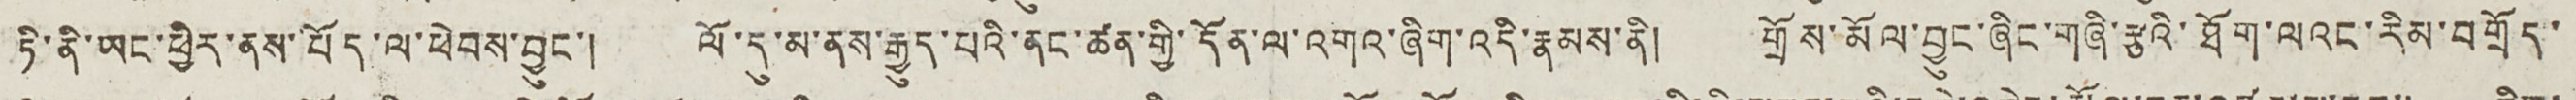ཏི་ནི་ཡང་ཕྱིར་ནས་བོད་ལ་ཕེབས་བྱུང་། ལོ་དུ་མ་ནས་རྒྱུད་པའི་ནང་ཚན་གྱི་དོན་ལ་འགའ་ཞིག་འདི་རྣམས་ནི། གྲོས་མོལ་བྱུང་ཞིང་གཞི་རྩའི་ཐོག་ལའང་རིམ་བགྲོད་
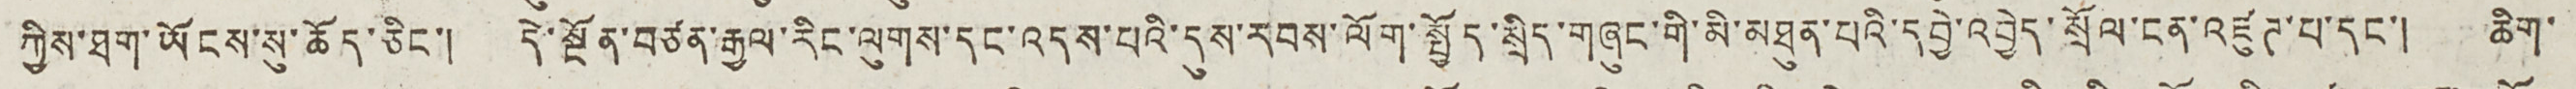ཀྱིས་ཐག་ཡོངས་སུ་ཆོད་ཅིང་། དེ་སྔོན་བཙན་རྒྱལ་རིང་ལུགས་དང་འདས་པའི་དུས་རབས་ལོག་སྤྱོད་སྲིད་གཞུང་གི་མི་མཐུན་པའི་དབྱེ་འབྱེད་སྲོལ་ངན་འཛུཊ་པ་དང་། ཆིག་
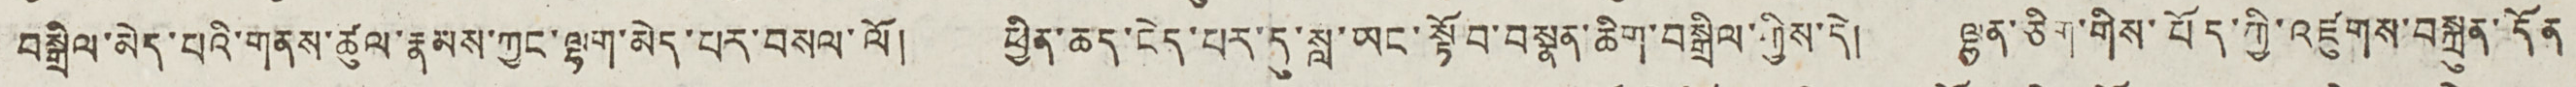བསྒྲིལ་མེད་པའི་གནས་ཚུལ་རྣམས་ཀྱང་ལྷག་མེད་པར་བསལ་ལོ། ཕྱིན་ཆད་ངེད་པར་དུ་སླ་ཡང་སྟོབ་བསྣན་ཆིག་བསྒྲིལ་གྱིས་དེ། ལྷན་ཅིག་གིས་བོད་ཀྱི་འཛུགས་བསྐྲུན་དོན
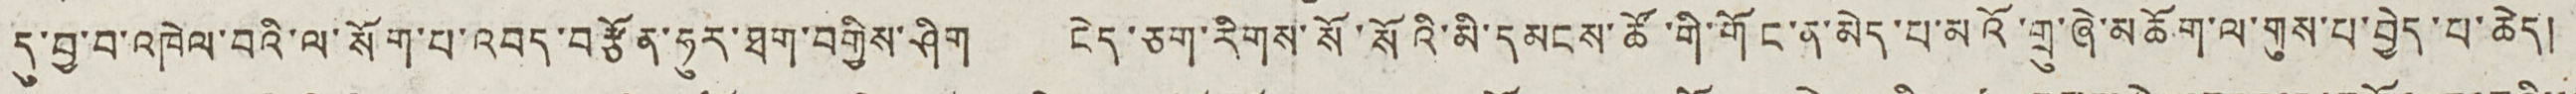དུ་བྱ་བ་འཁེལ་བའི་ལ་སོག་པ་འབད་བརྩོན་ཧུར་ཐག་བགྱིས་ཤིག ངེད་ཅག་རིགས་སོ་སོའི་མི་དམངས་ཚོ་གི་གོང་ན་མེད་པ་མའོ་གྲུ་ཞེ་མཆོག་ལ་གུས་པ་བྱེད་པ་ཆེད།
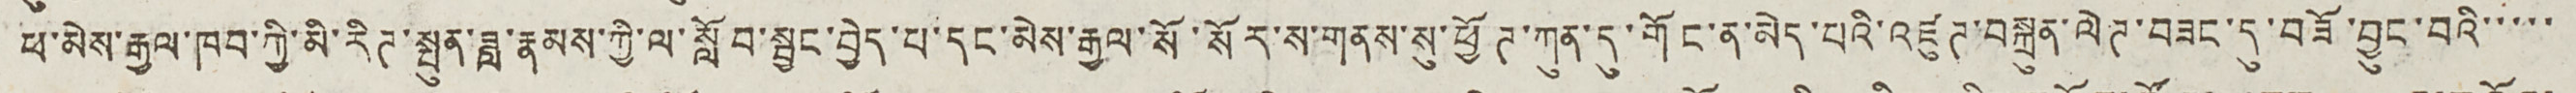ཕ་མེས་རྒྱལ་ཁབ་ཀྱི་མི་རིཊ་སྤུན་ཟླ་རྣམས་ཀྱི་ལ་སློབ་སྦྱང་བྱེད་པ་དང་མེས་རྒྱལ་སོ་སོར་ས་གནས་སུ་ཕྱོཊ་ཀུན་དུ་གོང་ན་མེད་པའི་འཛུཊ་བསྐྲུན་ལེཊ་བཟང་དུ་བཟོ་བྱུང་བའི་་་་་
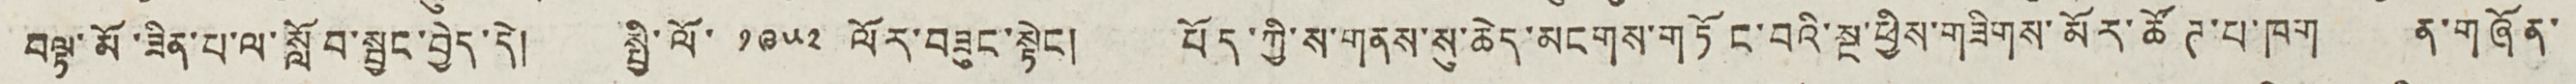བལྟ་མོ་ཟིན་པ་ལ་སློབ་སྦྱང་བྱེད་དེ། སྤྱི་ལོ་ ༡༩༥༢ ལོར་བཟུང་སྟེང། བོད་ཀྱི་ས་གནས་སུ་ཆེད་མངགས་གཏོང་བའི་སྔ་ཕྱིས་གཟིགས་མོར་ཚོཊ་པ་ཁག ན་གཞོན་
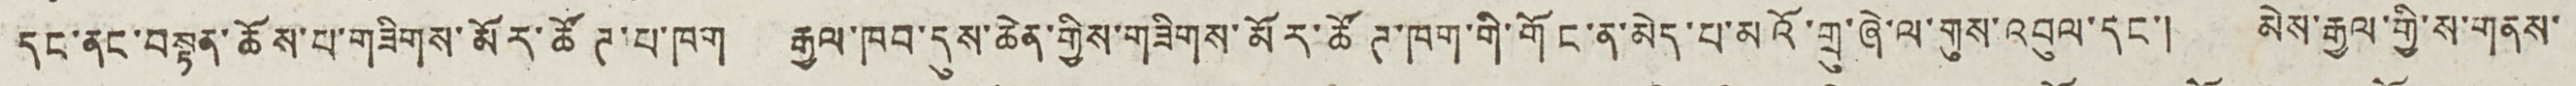དང་ནང་བསྟན་ཆོས་པ་གཟིགས་མོར་ཚོཊ་པ་ཁག རྒྱལ་ཁབ་དུས་ཆེན་གྱིས་གཟིགས་མོར་ཚོཊ་ཁག་གི་གོང་ན་མེད་པ་མའོ་གྲུ་ཞེ་ལ་གུས་འབུལ་དང་། མེས་རྒྱལ་གྱི་ས་གནས་
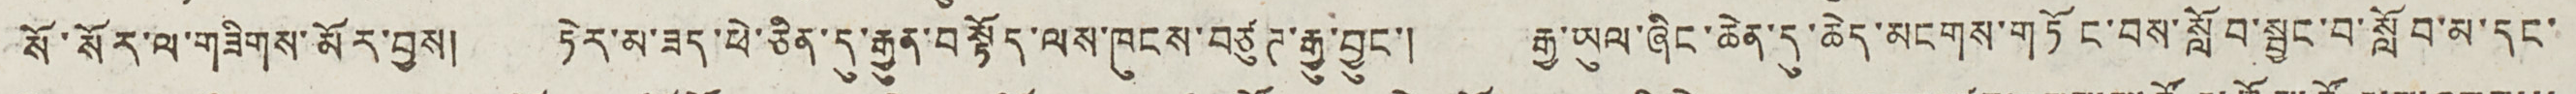སོ་སོར་ལ་གཟིགས་མོར་བྱས། ཏེར་མ་ཟད་ཕེ་ཅིན་དུ་རྒྱུན་བསྟོད་ལས་ཁུངས་བཙུཊ་རྒྱ་བྱུང་། རྒྱ་ཡུལ་ཞིང་ཆེན་དུ་ཆེད་མངགས་གཏོང་བས་སློབ་སྦྱང་བ་སློབ་མ་དང་།
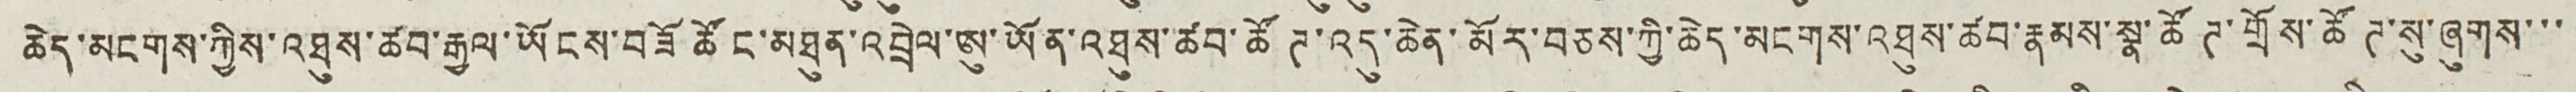ཆེད་མངགས་ཀྱིས་འཐུས་ཚབ་རྒྱལ་ཡོངས་བཟོ ཚོང་མཐུན་འབྲེལ་ཨུ་ཡོན་འཐུས་ཚབ་ཚོཊ་འདུ་ཆེན་མོར་བཅས་ཀྱི་ཆེད་མངགས་འཐུས་ཚབ་རྣམས་སྣ་ཚོ ཊ་གྲོས་ཚོ ཊ་སུ་ཞུགས་་་
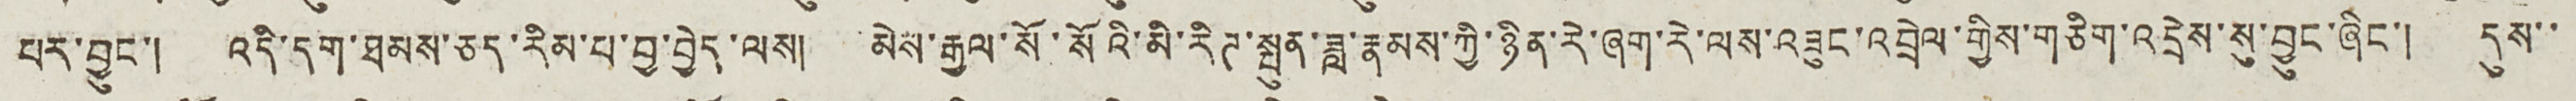པར་བྱུང་། འདི་དག་ཐམས་ཅད་རིམ་པ་བྱ་བྱེད་ལས། མེས་རྒྱལ་སོ་སོའི་མི་རིཊ་སྤུན་ཟླ་རྣམས་ཀྱི་ཉིན་རེ་ཞག་རེ་ལས་འཟུང་འབྲེལ་གྱིས་གཅིག་འདྲེས་སུ་བྱུང་ཞིང་། དུས་་
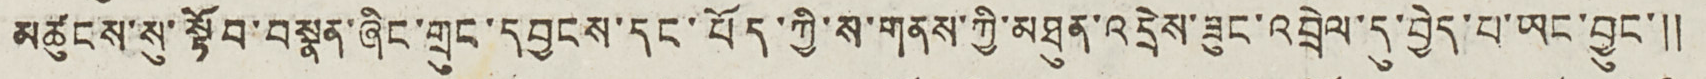མཚུངས་སུ་སྟོབ་བསྣན་ཞིང་གྲུང་དབྱངས་དང་བོད་ཀྱི་ས་གནས་ཀྱི་མཐུན་འདྲེས་ཟུང་འབྲེལ་དུ་བྱེད་པ་ཡང་བྱུང་༎
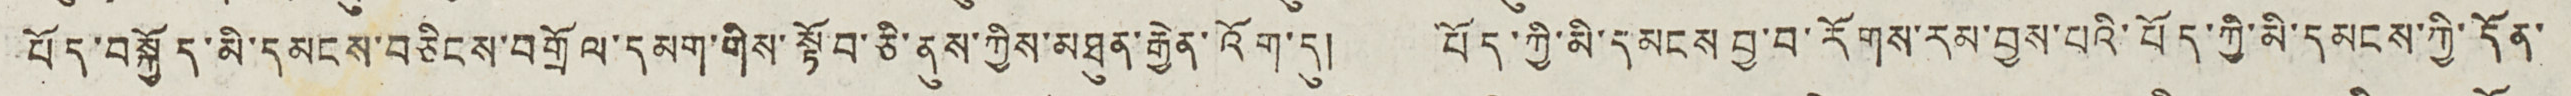བོད་བསྐྱོད་མི་དམངས་བཅིངས་བགྲོལ་དམག་གིས་སྟོབ་ཅི་ནུས་ཀྱིས་མཐུན་རྒྱེན་འོག་དུ། བོད་ཀྱི་མི་དམངས བྱ་བ་རོགས་རམ་བྱས་པའི་བོད་ཀྱི་མི་དམངས་ཀྱི་དོན་
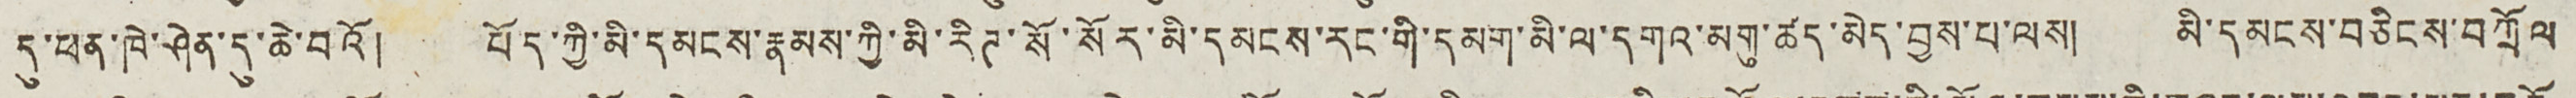དུ་ཕན་ཁེ་ཤེན་དུ་ཆེ་བའོ། བོད་ཀྱི་མི་དམངས་རྣམས་ཀྱི་མི་རིཊ་སོ་སོར་མི་དམངས་རང་གི་དམག་མི་ལ་དགའ་མགུ་ཚད་མེད་བྱས་པ་ལས། མི་དམངས་བཅིངས་བཀྲོལ
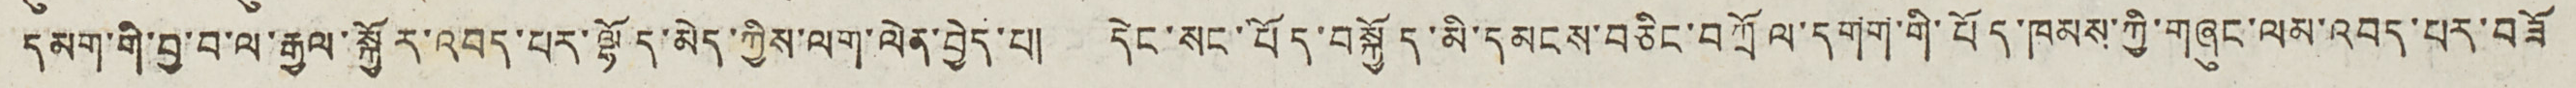དམག་གི་བྱ་བ་ལ་རྒྱལ་སྐྱོར་འབད་པར་ལྷོད་མེད་ཀྱིས་ལག་ལེན་བྱེད་པ། དེང་སང་བོད་བསྐྱོད་མི་དམངས་བཅིང་བཀྲོལ་དགག་གི་བོད་ཁམས་ཀྱི་གཞུང་ལམ་འབད་པར་བཟོ
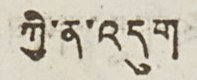ཀྱི་ན་འདུག
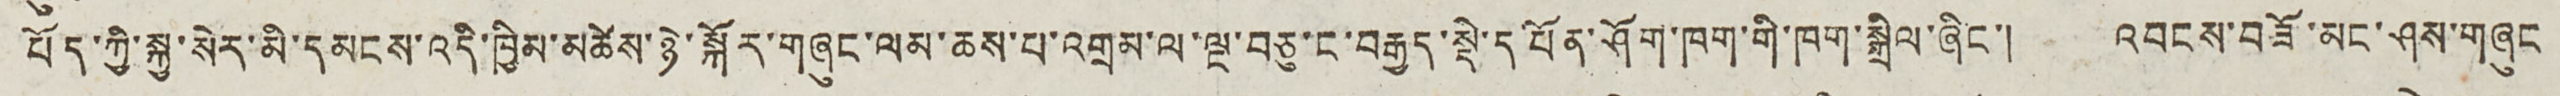བོད་ཀྱི་སྐྱ་སེར་མི་དམངས་འདི་ཁྱིམ་མཚེས་ཉེ་སྐོར་གཞུང་ལམ་ཆས་པ་འགྲམ་ལ་ལྔ་བཅུ་ང་བརྒྱད་སྡེ་དཔོན་ཤོག་ཁག་གི་ཁག་སྒྲིལ་ཞིང་། འབངས་བཟོ་མང་ཤས་གཞུང
